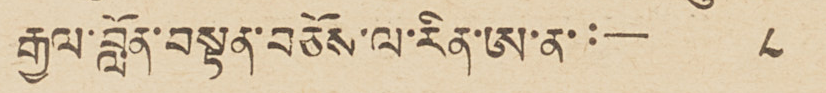རྒྱལ་བློན་བསྟན་བཅོས་ལ་རིན་ཨ་ན་ :— ༨
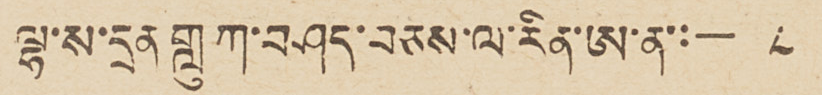ལྷ་ས་དྲན གླུ ཀ་བཤད་བཅས་ལ་རིན་ཨ་ན་:— ༨
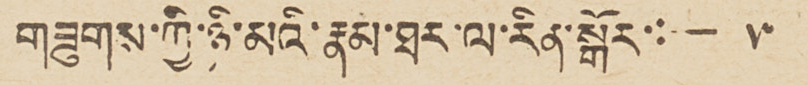གཟུགས་ཀྱི་ཉི་མའི་རྣམ་ཐར་ལ་རིན་སྒོར་:— ༥
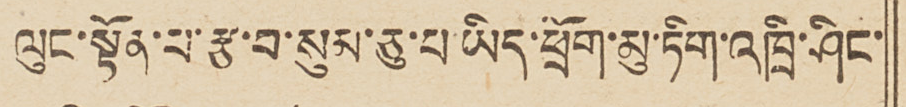ལུང་སྟོན་པ་རྩ་བ་སུམ་ཅུ་པ་ཡིད་ཕྲོག་མུ་ཏིག་འཁྲི་ཤིང་
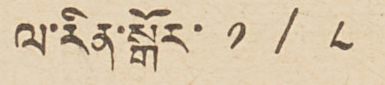ལ་རིན་སྒོར་ ༡ / ༨
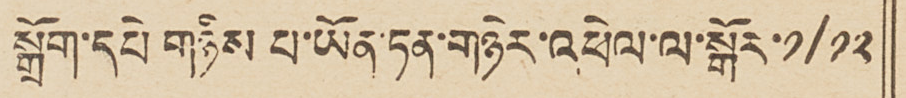སྒྲོག་དཔེ གཉིས པ་ཡོན་ཏན་གཉེར་འཕེལ་ལ་སྒོར་༡/༡༢
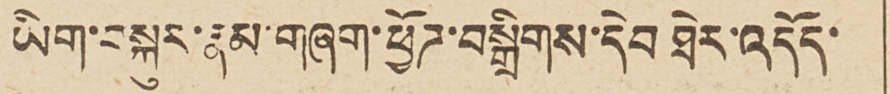ཡིག་བསྐུར་རྣམ་གཞག་ཕྱོཌ་བསྒྲིགས་དེབ ཐེར་འདོད་
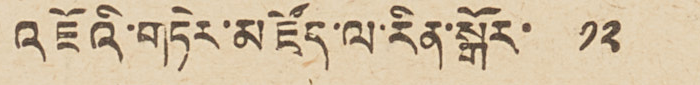འཇོའི་གཏེར་མཛོད་ལ་རིན་སྒོར་  ༡༢
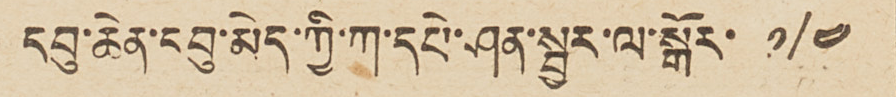དབུ་ཆེན་དབུ་མེད་ཀྱི་ཀ་དཔེ་ཤན་སྦྱར་ལ་སྒོར་  ༡/༤
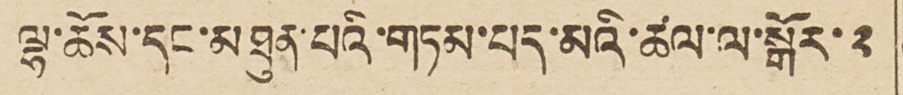ལྷ་ཆོས་དང་མཐུན་པའི་གཏམ་པད་མའི་ཚལ་ལ་སྒོར་༢
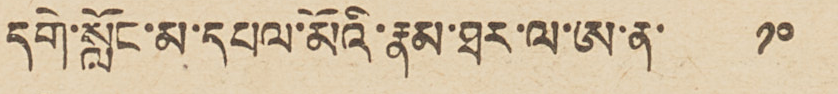དགེ་སློང་མ་དཔལ་མོའི་རྣམ་ཐར་ལ་ཨ་ན་    ༡༠
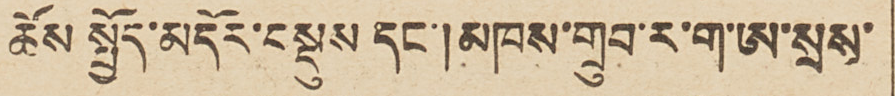ཆོས སྤྱོད་མདོར་བསྡུས དང་།མཁས་གྲུབ་ར་ག་ཨ་སྲས་
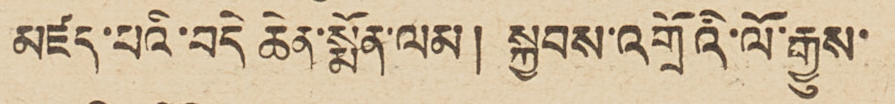མཛད་པའི་བདེ་ཆེན་སྨོན་ལམ། སྐྱབས་འགྲོའི་ལོ་རྒྱུས་
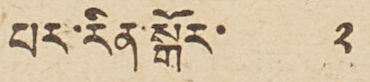པར་རིན་སྒོར་ ༢
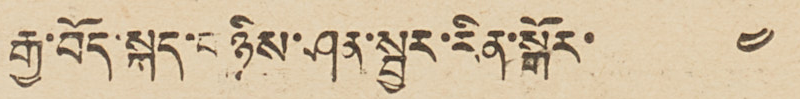རྒྱ་བོད་སྐད་གཉིས་ཤན་སྦྱར་རིན་སྒོར་ ༤
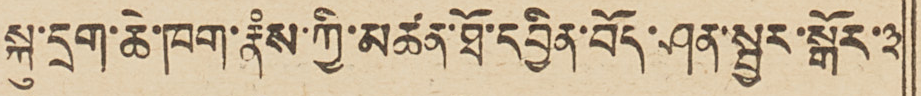སྐུ་དྲག་ཆེ་ཁག་རྣཾས་ཀྱི་མཚན་ཐོ་དབྱིན་བོད་ཤན་སྦྱར་སྒོར་༣
